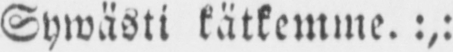Hywästi kätkemme. :,:
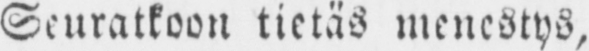Seuratkoon tietäs menestys,
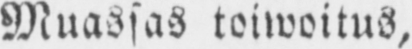Muassas toiwoitus,
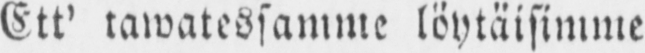Ett' tawatessamme löytäisimme
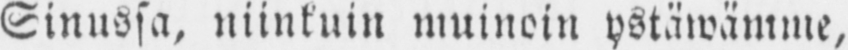Sinussa, niinkuin muinoin ystäwämme,
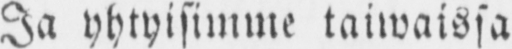Ja yhtyisimme taiwaissa
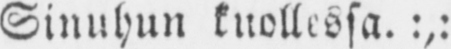Sinuhun kuollessa. :,:
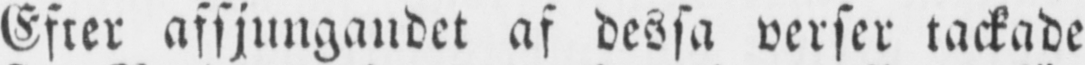Efter afsjungandet af dessa verser tackade
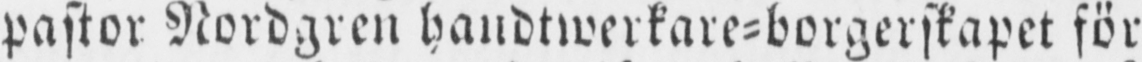pastor Nordgren handtwerkare-borgerskapet för
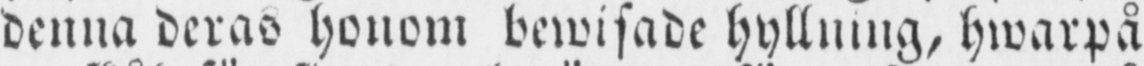denna deras honom bewisade hyllning, hwarpå
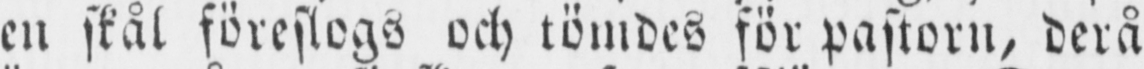en skål föreslogs och tömdes för pastorn, derå
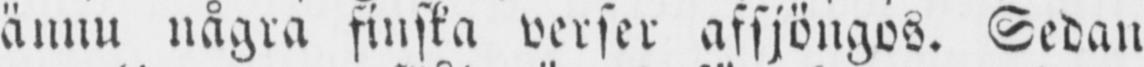ännu några finska verser afsjöngos. Sedan
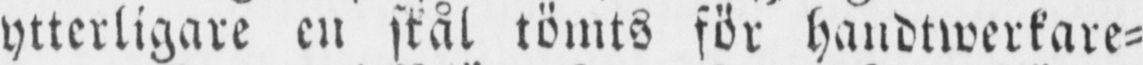ytterligare en skål tömts för handtwerkare-
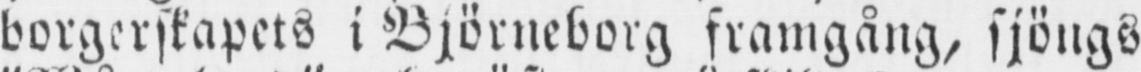borgerskapets i Björneborg framgång, sjöngs
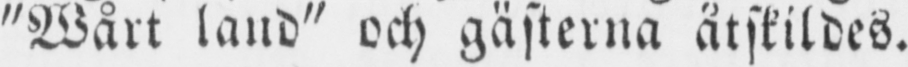"Wårt land" och gästerna åtskildes.
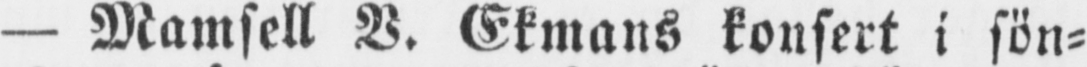— Mamsell V. Ekmans konsert i sön-
